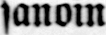sanoin
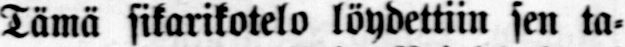Tämä sikarikotelo löydettiin sen ta-
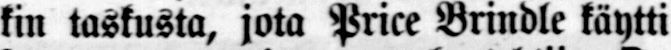kin taskusta, jota Price Brindle käytti
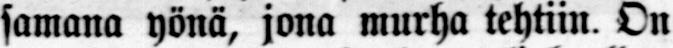samana yönä, jona murha tehtiin. On
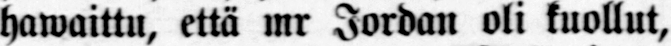hawaittu, että mr Jordan oli kuollut,
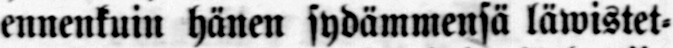ennenkuin hänen sydämmensä läwistet-
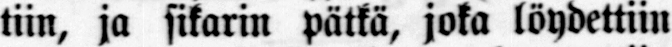tiin, ja sikarin pätkä, joka löydettiin
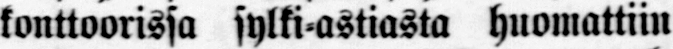konttoorissa sylki-astiasta huomattiin
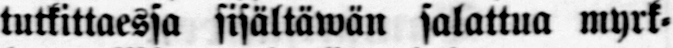tutkittaessa sisältäwän salattua myrk-
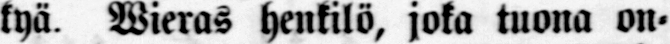kyä. Wieras henkilö, joka tuona on-
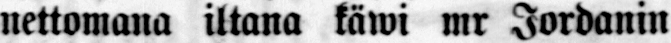nettomana iltana käwi mr Jordanin
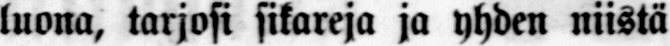luona, tarjosi sikareja ja yhden niistä
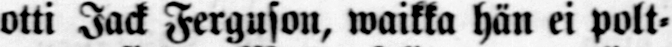otti Jack Ferguson, waikka hän ei polt-
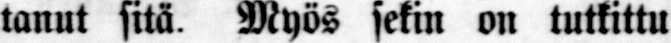tanut sitä. Myös sekin on tutkittu
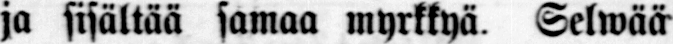ja sisältää samaa myrkkyä. Selwää
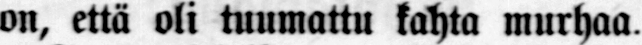on, että oli tuumattu kahta murhaa.
